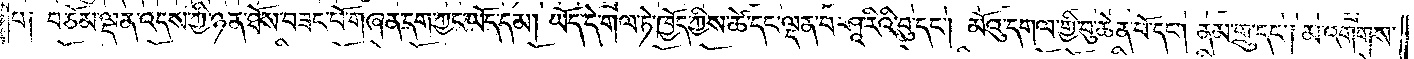པ༑ བཅོམ་ལྡན་འདས་ཀྱི་ཉན་ཐོས་བཟང་པོ་གཞན་དག་ཀྱང་ཡོད་དམ། ཡོད་དེ་གལ་ཏེ་ཁྱོད་ཀྱིས་ཚེ་དང་ལྡན་པ་ཤཱ་རིའི་བུ་དང༌། མོའུ་དགལ་གྱི་བུ་ཆེན་པོ་དང༌། ནམ་གྲུ་དང༌། མ་འགགས་
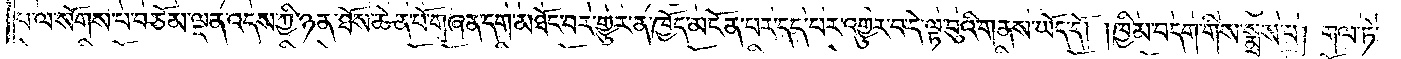པ་ལ་སོགས་པ་བཅོམ་ལྡན་འདས་ཀྱི་ཉན་ཐོས་ཆེན་པོ་གཞན་དག་མཐོང་བར་གྱུར་ན་ཁྱོད་མངོན་པར་དད་པར་འགྱུར་བ་དེ་ལྟ་བུའི་གནས་ཡོད་དོ། །ཁྱིམ་བདག་གིས་སྨྲས་པ། གལ་ཏེ་
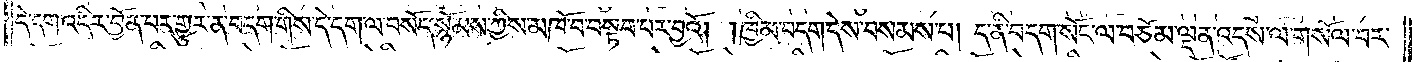དེ་དག་འདིར་བྱོན་པར་གྱུར་ན་བདག་གིས་དེ་དག་ལ་བསོད་སྙོམས་ཀྱིས་མཁོ་བ་བསྟབ་པར་བྱའོ། །ཁྱིམ་བདག་དེས་བསམས་པ། ད་ནི་བདག་སོང་ལ་བཅོམ་ལྡན་འདས་ལ་གསོལ་བར་
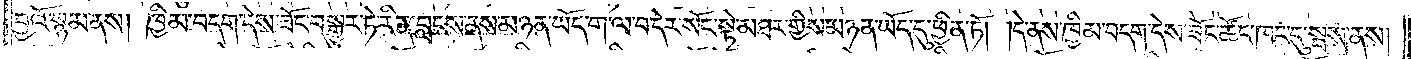བྱའོ་སྙམ་ནས། ཁྱིམ་བདག་དེས་ཟོང་བསྒྱུར་ཏེ་རིན་བླངས་ནས་མཉན་ཡོད་ག་ལ་བ་དེར་སོང་སྟེ་མཐར་གྱིས་མཉན་ཡོད་དུ་ཕྱིན་ཏོ། །དེ་ནས་ཁྱིམ་བདག་དེས་ཟོང་ཚོང་ཁང་དུ་སྦས་ནས།
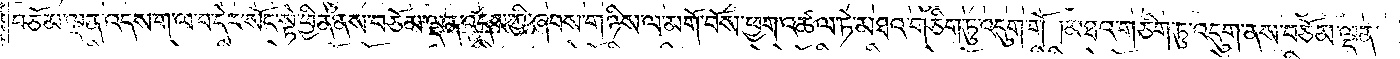བཅོམ་ལྡན་འདས་ག་ལ་བ་དེར་སོང་སྟེ་ཕྱིན་ནས་བཅོམ་ལྡན་འདས་ཀྱི་ཞབས་གཉིས་ལ་མགོ་བོས་ཕྱག་འཚལ་ཏེ་མཐའ་གཅིག་ཏུ་འདུག་གོ། །མཐའ་གཅིག་ཏུ་འདུག་ནས་བཅོམ་ལྡན་
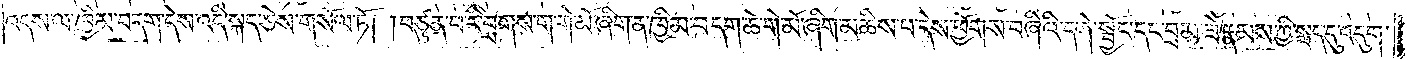འདས་ལ་ཁྱིམ་བདག་དེས་འདི་སྐད་ཅེས་གསོལ་ཏོ། །བཙུན་པ་རི་བྲགས་ག་གེ་མོ་ཞིག་ན་ཁྱིམ་བདག་ཆེ་གེ་མོ་ཞིག་མཆིས་པ་དེས་ཕྱོགས་བཞིའི་དགེ་སྦྱོང་དང་བྲམ་ཟེ་རྣམས་ཀྱི་སླད་དུ་འདུག་
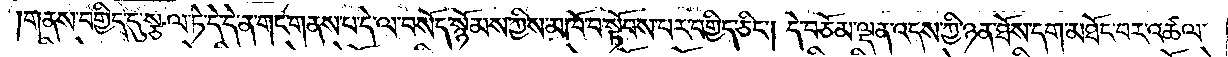གནས་བགྱིད་དུ་སྩལ་ཏེ་དེ་དེ་ན་གང་གནས་པ་དེ་ལ་བསོད་སྙོམས་ཀྱིས་མཁོ་བ་སྟོབས་པར་བགྱིད་ཅིང༌། དེ་བཅོམ་ལྡན་འདས་ཀྱི་ཉན་ཐོས་དག་མཐོང་བར་འཚལ་
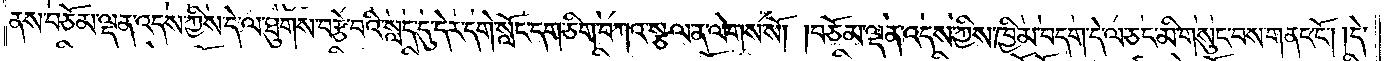ནས་བཅོམ་ལྡན་འདས་ཀྱིས་དེ་ལ་ཐུགས་བརྩེ་བའི་སླད་དུ་དེར་དགེ་སློང་དག་ཅིག་བཀའ་སྩལ་ན་ལེགས་སོ། །བཅོམ་ལྡན་འདས་ཀྱིས་ཁྱིམ་བདག་དེ་ལ་ཅང་མི་གསུང་བས་གནང་ངོ༌། །དེ་
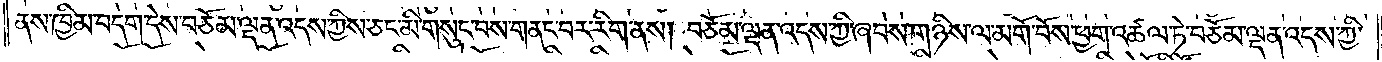ནས་ཁྱིམ་བདག་དེས་བཅོམ་ལྡན་འདས་ཀྱིས་ཅང་མི་གསུང་བས་གནང་བར་རིག་ནས། བཅོམ་ལྡན་འདས་ཀྱིས་ཞབས་གཉིས་ལ་མགོ་བོས་ཕྱག་འཚལ་ཏེ་བཅོམ་ལྡན་འདས་ཀྱི་
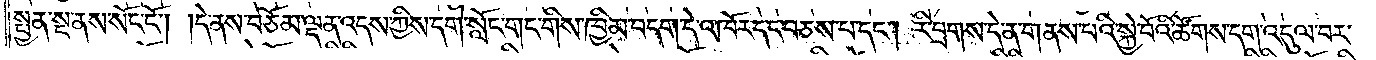སྤྱན་སྔ་ནས་སོང་ངོ༌། །དེ་ནས་བཅོམ་ལྡན་འདས་ཀྱིས་དགེ་སློང་གང་གིས་ཁྱིམ་བདག་དེ་འཁོར་དང་བཅས་པ་དང༌། རི་བྲགས་དེ་ན་གནས་པའི་སྐྱེ་བོའི་ཚོགས་དག་འདུལ་བར་
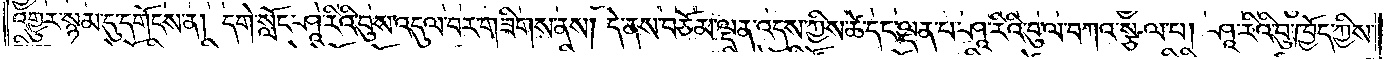འགྱུར་སྙམ་དུ་དགོངས་ན། དགེ་སློང་ཤཱ་རིའི་བུས་འདུལ་བར་གཟིགས་ནས། དེ་ནས་བཅོམ་ལྡན་འདས་ཀྱིས་ཚེ་དང་ལྡན་པ་ཤཱ་རིའི་བུ་ལ་བཀའ་སྩལ་པ། ཤཱ་རིའི་བུ་ཁྱོད་ཀྱིས་
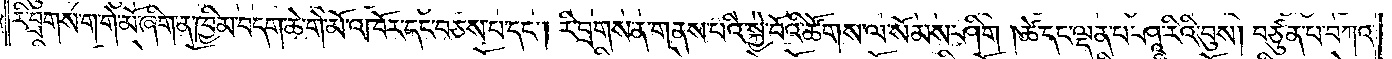རི་བྲགས་ག་གེ་མོ་ཞིག་ན་ཁྱིམ་བདག་ཆེ་གེ་མོ་འཁོར་དང་བཅས་པ་དང༌། རི་བྲགས་ན་གནས་པའི་སྐྱེ་བོའི་ཚོགས་ལ་སོམས་ཤིག །ཚེ་དང་ལྡན་པ་ཤཱ་རིའི་བུས། བཙུན་པ་བཀའ་
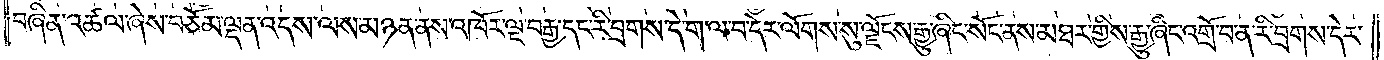བཞིན་འཚལ་ཞེས་བཅོམ་ལྡན་འདས་ལས་མཉན་ནས་འཁོར་ལྔ་བརྒྱ་དང་རི་བྲགས་དེ་ག་ལ་བ་དེར་ལོགས་སུ་ལྗོངས་རྒྱུ་ཞིང་སོང་ནས་མཐར་གྱིས་རྒྱུ་ཞིང་འགྲོ་བ་ན་རི་བྲགས་དེར་
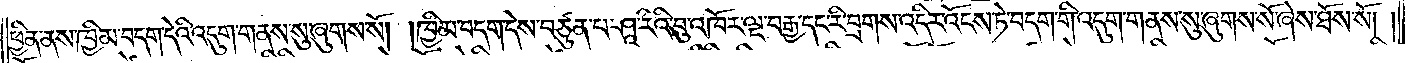ཕྱིན་ནས་ཁྱིམ་བདག་དེའི་འདུག་གནས་སུ་ཞུགས་སོ། །ཁྱིམ་བདག་དེས་བཙུན་པ་ཤཱ་རིའི་བུ་འཁོར་ལྔ་བརྒྱ་དང་རི་བྲགས་འདིར་འོངས་ཏེ་བདག་གི་འདུག་གནས་སུ་ཞུགས་སོ་ཞེས་ཐོས་སོ། །
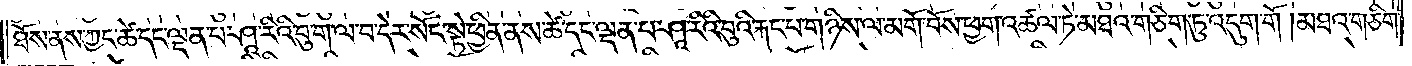ཐོས་ནས་ཀྱང་ཚེ་དང་ལྡན་པ་ཤཱ་རིའི་བུ་ག་ལ་བ་དེར་སོང་སྟེ་ཕྱིན་ནས་ཚེ་དང་ལྡན་པ་ཤཱ་རིའི་བུའི་རྐང་པ་གཉིས་ལ་མགོ་བོས་ཕྱག་འཚལ་ཏེ་མཐའ་གཅིག་ཏུ་འདུག་གོ །མཐའ་གཅིག་
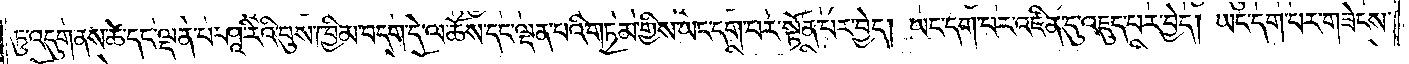ཏུ་འདུག་ནས་ཚེ་དང་ལྡན་པ་ཤཱ་རིའི་བུས་ཁྱིམ་བདག་དེ་ལ་ཆོས་དང་ལྡན་པའི་གཏམ་གྱིས་ཡང་དག་པར་སྟོན་པར་བྱེད། ཡང་དག་པར་འཛིན་དུ་འཇུད་པར་བྱེད། ཡང་དག་པར་གཟེངས་
